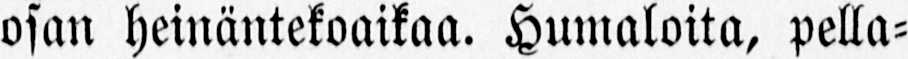osan heinäntekoaikaa. Humaloita, pella-
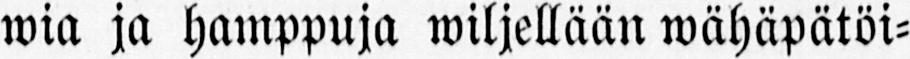wia ja hamppuja wiljellään wähäpätöi-
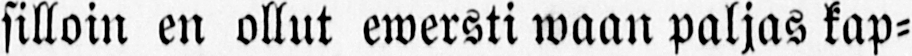silloin en ollut ewersti waan paljas kap-
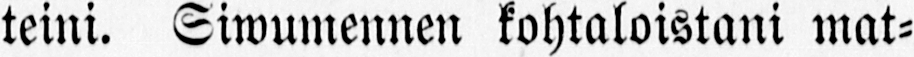teini. Siwumennen kohtaloistani mat-
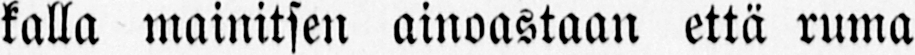kalla mainitsen ainoastaan että ruma
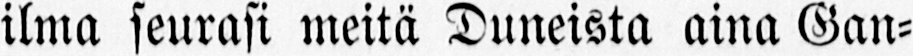ilma seurasi meitä Daneista aina Gan-
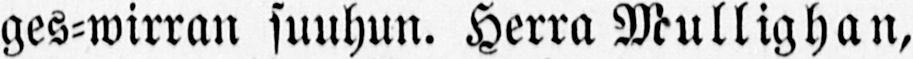ges-wirran suuhun. Herra Mullighan,
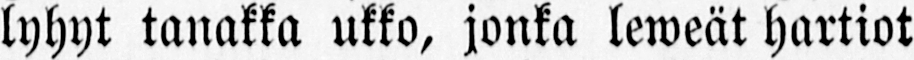lyhyt tanakka ukko, jonka leweät hartiot
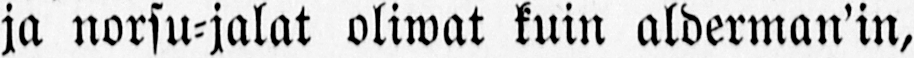ja norsu-jalat oliwat kuin alderman’in,
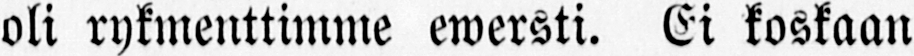oli rykmenttimme ewersti. Ei koskaan
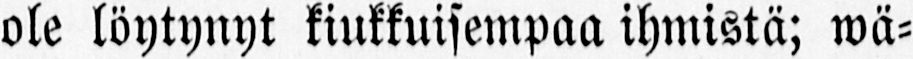ole löytynyt kiukkuisempaa ihmistä; wä-
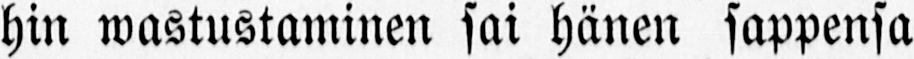hin wastustaminen sai hänen sappensa
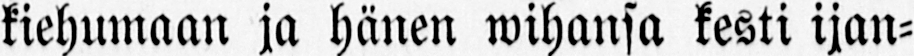kiehumaan ja hänen wihansa kesti ijan-
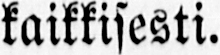kaikkisesti.
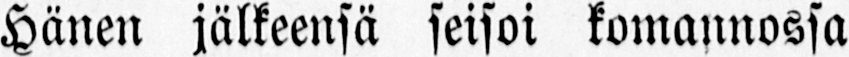Hänen jälkeensä seisoi komannossa
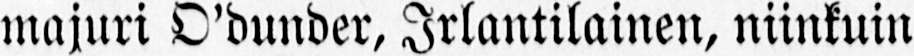majuri O’dunder, Irlantilainen, niinkuin
